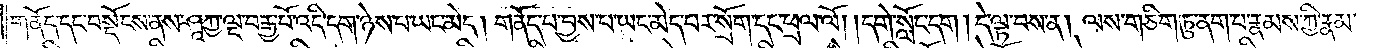གནོད་དང་བསྡོངས་ནས་ཤཱཀྱ་ལྔ་བརྒྱ་པོ་དག་ཉེས་པ་ཡང་མེད། གནོད་པ་བྱས་པ་ཡང་མེད་པར་སྲོག་དང་ཕྲལ་ལོ། །དགེ་སློང་དག །དེ་ལྟ་བས་ན། ལས་གཅིག་ཏུ་ནག་པ་རྣམས་ཀྱི་རྣམ་
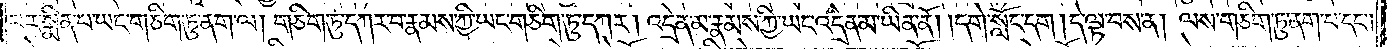པར་སྨིན་པ་ཡང་གཅིག་ཏུ་ནག་ལ། གཅིག་ཏུ་དཀར་བ་རྣམས་ཀྱི་ཡང་གཅིག་ཏུ་དཀར། འདྲེན་མ་རྣམས་ཀྱི་ཡང་འདྲེན་མ་ཡིན་ནོ། །དགེ་སློང་དག །དེ་ལྟ་བས་ན། ལས་གཅིག་ཏུ་ནག་པ་དང༌།
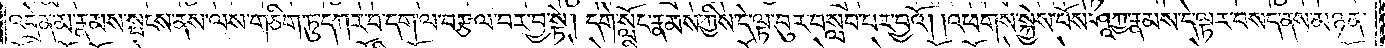འདྲེན་མ་རྣམས་སྤངས་ནས་ལས་གཅིག་ཏུ་དཀར་བ་དག་ལ་བརྩལ་བར་བྱ་སྟེ། དགེ་སློང་རྣམས་ཀྱིས་དེ་ལྟ་བུར་བསླབ་པར་བྱའོ། །འཕགས་སྐྱེས་བོས་ཤཱཀྱ་རྣམས་དེ་ལྟར་བསད་ནས་མཉན་
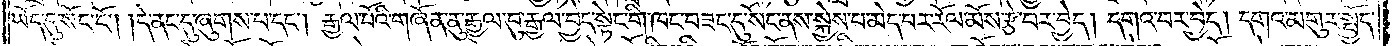ཡོད་དུ་སོང་ངོ༌། །དེ་ནང་དུ་ཞུགས་པ་དང༌། རྒྱལ་པོའི་གཞོན་ནུ་རྒྱལ་བུ་རྒྱལ་བྱེད་སྟེང་གི་ཁང་བཟང་དུ་སོང་ནས་སྐྱེས་པ་མེད་པར་རོལ་མོས་རྩེ་བར་བྱེད། དགའ་བར་བྱེད། དགའ་མགུར་སྤྱོད་
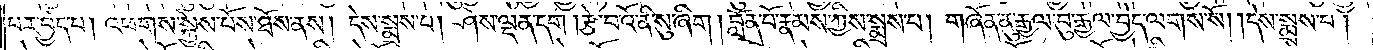པར་བྱེད་པ། འཕགས་སྐྱེས་པོས་ཐོས་ནས། དེས་སྨྲས་པ། ཤེས་ལྡན་དག །རྩེ་བའོ་ནི་སུ་ཞིག །བློན་པོ་རྣམས་ཀྱིས་སྨྲས་པ། གཞོན་ནུ་རྒྱལ་བུ་རྒྱལ་བྱེད་ལགས་སོ། །དེས་སྨྲས་པ།
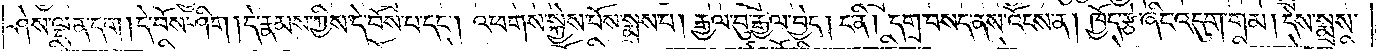ཤེས་ལྡན་དག །དེ་བོས་ཤིག །དེ་རྣམས་ཀྱིས་དེ་བོས་པ་དང༌། འཕགས་སྐྱེས་པོས་སྨྲས་པ། རྒྱལ་བུ་རྒྱལ་བྱེད། ང་ནི། དགྲ་བསད་ནས་འོངས་ན། ཁྱོད་རྩེ་ཞིང་འདུག་གམ། དེས་སྨྲས་
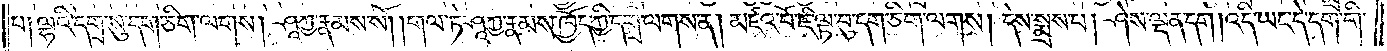པ། ལྷའི་དགྲ་སུ་དག་ཅིག་ལགས། ཤཱཀྱ་རྣམས་སོ། །གལ་ཏེ་ཤཱཀྱ་རྣམས་ཁྱོད་ཀྱི་དགྲ་ལགས་ན། མཛའ་བོ་ཇི་ལྟ་བུ་དག་ཅི་ལགས། དེས་སྨྲས་པ། ཤེས་ལྡན་དག །འདི་ཡང་དེ་དག་གི་
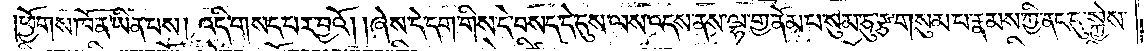ཕྱོགས་ཁོ་ན་ཡིན་པས། འདི་གསད་པར་བྱའོ། །ཞེས་དེ་དག་གིས་དེ་བསད་དེ་དུས་ལས་འདས་ནས་ལྷ་གྱ་ནོམ་པ་སུམ་ཅུ་རྩ་གསུམ་པ་རྣམས་ཀྱི་ནང་དུ་སྐྱེས་
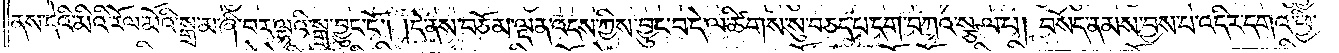ནས་དེའི་མིའི་རོལ་མོའི་སྒྲ་མ་ཞི་བར་ལྷའི་སྒྲ་བྱུང་ངོ༌། །དེ་ནས་བཅོམ་ལྡན་འདས་ཀྱིས་བྱུང་བ་དེ་ལ་ཚིགས་སུ་བཅད་པ་དག་བཀའ་སྩལ་པ། བསོད་ནམས་བྱས་པ་འདིར་དགའ་ཕྱི་
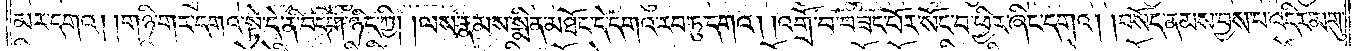མར་དགའ། །གཉི་གར་དགའ་སྟེ་དེ་ནི་བདག་ཉིད་ཀྱི། །ལས་རྣམས་སྨིན་མཐོང་དེ་དགའ་རབ་ཏུ་དགའ། །འགྲོ་བ་བཟང་པོར་སོང་བ་ཕྱིར་ཞིང་དགའ། །བསོད་ནམས་བྱས་པ་འདིར་མགུ་
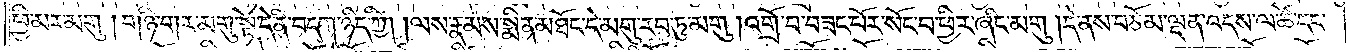ཕྱི་མར་མགུ་།གཉི་གར་མགུ་སྟེ་དེ་ནི་བདག་ཉིད་ཀྱི། །ལས་རྣམས་སྨིན་མཐོང་དེ་མགུ་རབ་ཏུ་མགུ་།འགྲོ་བ་བཟང་པོར་སོང་བ་ཕྱིར་ཞིང་མགུ་།དེ་ནས་བཅོམ་ལྡན་འདས་ལ་ཚེ་དང་
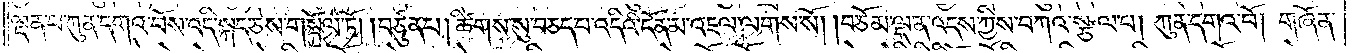ལྡན་པ་ཀུན་དགའ་བོས་འདི་སྐད་ཅེས་གསོལ་ཏོ། །བཙུན་པ། ཚིགས་སུ་བཅད་པ་འདིའི་དོན་མ་འཇལ་ལགས་སོ། །བཅོམ་ལྡན་འདས་ཀྱིས་བཀའ་སྩལ་པ། ཀུན་དགའ་བོ། གཞོན་
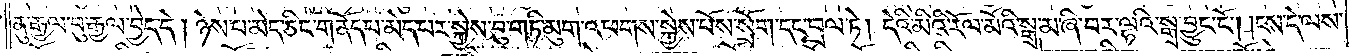ནུ་རྒྱལ་བུ་རྒྱལ་བྱེད་དེ། ཉེས་པ་མེད་ཅིང་གནོད་པ་མེད་པར་སྐྱེས་བུ་གཏི་མུག་འཕགས་སྐྱེས་པོས་སྲོག་དང་བྲལ་ཏེ། དེའི་མིའི་རོལ་མོའི་སྒྲ་མ་ཞི་བར་ལྷའི་སྒྲ་བྱུང་ངོ༌། །ངས་དེ་ལས་
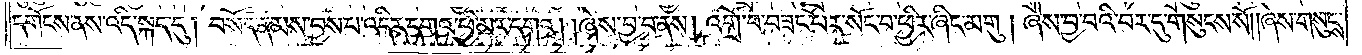དགོངས་ནས་འདི་སྐད་དུ། བསོད་ནམས་བྱས་པ་འདིར་དགའ་ཕྱི་མར་དགའ། །ཞེས་བྱ་བ་ནས། འགྲོ་བ་བཟང་པོར་སོང་བ་ཕྱིར་ཞིང་མགུ་།ཞེས་བྱ་བའི་བར་དུ་གསུངས་སོ། །ཞེས་གསུངས་
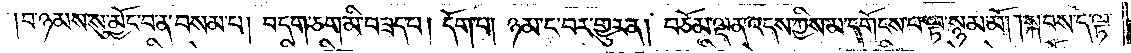བ་ཉམས་སུ་མྱོང་བ་ན་བསམ་པ། བདག་ཅག་མི་བཟད་པ། དོག་པ། ཉམ་ང་བར་གྱུར་ན། བཅོམ་ལྡན་འདས་ཀྱིས་མ་དགོངས་པ་ལྟ་སྙམ་མོ། །སྐབས་དེ་ལྟ་
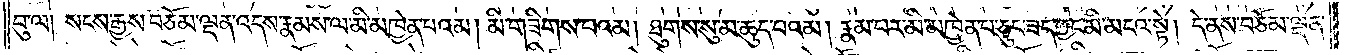བུ་ལ། སངས་རྒྱས་བཅོམ་ལྡན་འདས་རྣམས་ལ་མི་མཁྱེན་པའམ། མི་གཟིགས་པའམ། ཐུགས་སུ་མ་ཆུད་པའམ། རྣམ་པར་མི་མཁྱེན་པ་ཅུང་ཟད་ཀྱང་མི་མངའ་སྟེ། དེ་ནས་བཅོམ་ལྡན་
